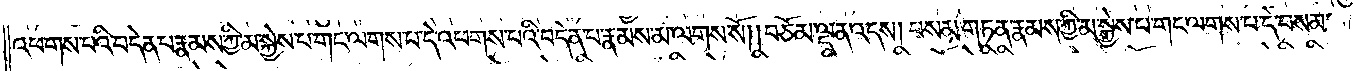འཕགས་པའི་བདེན་པ་རྣམས་ཀྱི་མ་སྐྱེས་པ་གང་ལགས་པ་དེ་འཕགས་པའི་བདེན་པ་རྣམས་མ་ལགས་སོ། །བཅོམ་ལྡན་འདས། བསམ་གཏན་རྣམས་ཀྱི་མ་སྐྱེས་པ་གང་ལགས་པ་དེ་བསམ་
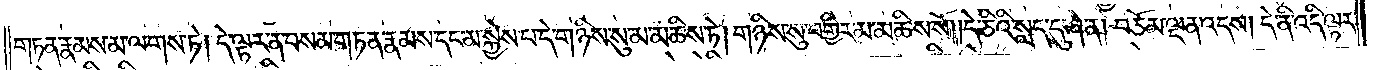གཏན་རྣམས་མ་ལགས་ཏེ། དེ་ལྟར་ན་བསམ་གཏན་རྣམས་དང་མ་སྐྱེས་པ་དེ་གཉིས་སུ་མ་མཆིས་ཏེ། གཉིས་སུ་བགྱིར་མ་མཆིས་སོ། །དེ་ཅིའི་སླད་དུ་ཞེ་ན། བཅོམ་ལྡན་འདས། དེ་ནི་འདི་ལྟར་
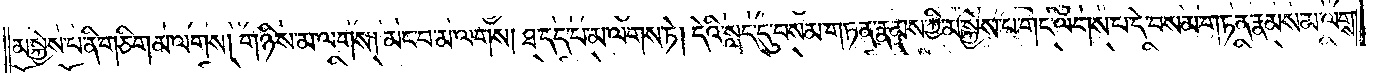མ་སྐྱེས་པ་ནི་གཅིག་མ་ལགས། གཉིས་མ་ལགས། མང་བ་མ་ལགས། ཐ་དད་པ་མ་ལགས་ཏེ། དེའི་སླད་དུ་བསམ་གཏན་རྣམས་ཀྱི་མ་སྐྱེས་པ་གང་ལགས་པ་དེ་བསམ་གཏན་རྣམས་མ་ལགས་
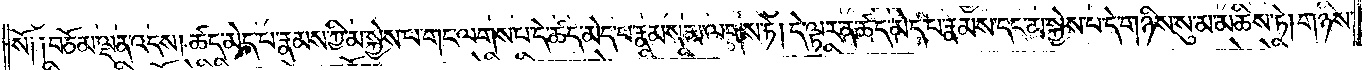སོ༑ ༑བཅོམ་ལྡན་འདས། ཚད་མེད་པ་རྣམས་ཀྱི་མ་སྐྱེས་པ་གང་ལགས་པ་དེ་ཚད་མེད་པ་རྣམས་མ་ལགས་ཏེ། དེ་ལྟར་ན་ཚད་མེད་པ་རྣམས་དང་མ་སྐྱེས་པ་དེ་གཉིས་སུ་མ་མཆིས་ཏེ། གཉིས་
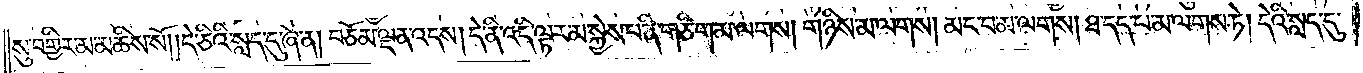སུ་བགྱིར་མ་མཆིས་སོ། །དེ་ཅིའི་སླད་དུ་ཞེ་ན། བཅོམ་ལྡན་འདས། དེ་ནི་འདི་ལྟར་མ་སྐྱེས་པ་ནི་གཅིག་མ་ལགས། གཉིས་མ་ལགས། མང་བ་མ་ལགས། ཐ་དད་པ་མ་ལགས་ཏེ། དེའི་སླད་དུ་
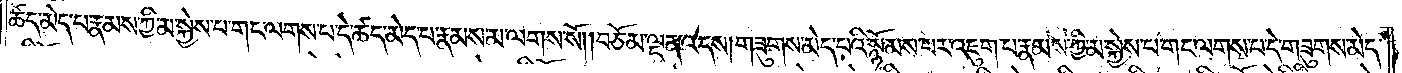ཚད་མེད་པ་རྣམས་ཀྱི་མ་སྐྱེས་པ་གང་ལགས་པ་དེ་ཚད་མེད་པ་རྣམས་མ་ལགས་སོ། །བཅོམ་ལྡན་འདས་གཟུགས་མེད་པའི་སྙོམས་པར་འཇུག་པ་རྣམས་ཀྱི་མ་སྐྱེས་པ་གང་ལགས་པ་དེ་གཟུགས་མེད་
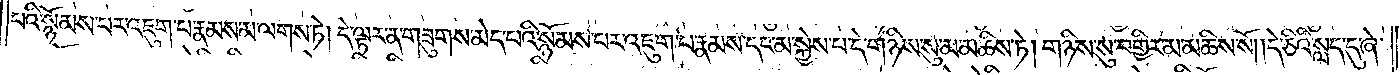པའི་སྙོམས་པར་འཇུག་པ་རྣམས་མ་ལགས་ཏེ། དེ་ལྟར་ན་གཟུགས་མེད་པའི་སྙོམས་པར་འཇུག་པ་རྣམས་དང་མ་སྐྱེས་པ་དེ་གཉིས་སུ་མ་མཆིས་ཏེ། གཉིས་སུ་བགྱིར་མ་མཆིས་སོ། །དེ་ཅིའི་སླད་དུ་ཞེ་
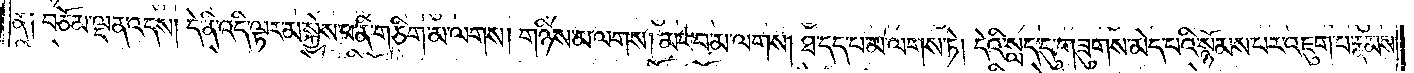ན༑ བཅོམ་ལྡན་འདས། དེ་ནི་འདི་ལྟར་མ་སྐྱེས་པ་ནི་གཅིག་མ་ལགས། གཉིས་མ་ལགས། མང་བ་མ་ལགས། ཐ་དད་པ་མ་ལགས་ཏེ། དེའི་སླད་དུ་གཟུགས་མེད་པའི་སྙོམས་པར་འཇུག་པ་རྣམས་
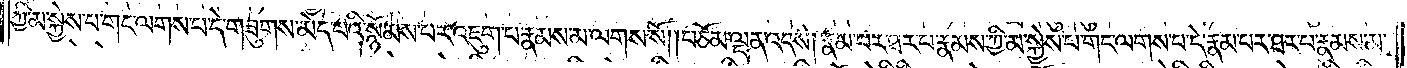ཀྱི་མ་སྐྱེས་པ་གང་ལགས་པ་དེ་གཟུགས་མེད་པའི་སྙོམས་པར་འཇུག་པ་རྣམས་མ་ལགས་སོ། །བཅོམ་ལྡན་འདས། རྣམ་པར་ཐར་པ་རྣམས་ཀྱི་མ་སྐྱེས་པ་གང་ལགས་པ་དེ་རྣམ་པར་ཐར་པ་རྣམས་མ་
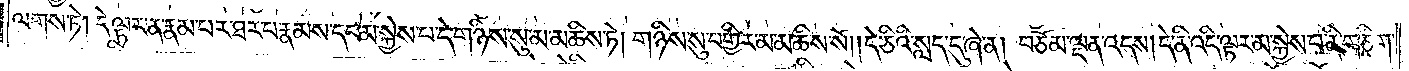ལགས་ཏེ། དེ་ལྟར་ན་རྣམ་པར་ཐར་པ་རྣམས་དང་མ་སྐྱེས་པ་དེ་གཉིས་སུ་མ་མཆིས་ཏེ། གཉིས་སུ་བགྱིར་མ་མཆིས་སོ། །དེ་ཅིའི་སླད་དུ་ཞེ་ན། བཅོམ་ལྡན་འདས། དེ་ནི་འདི་ལྟར་མ་སྐྱེས་པ་ནི་གཅིག་
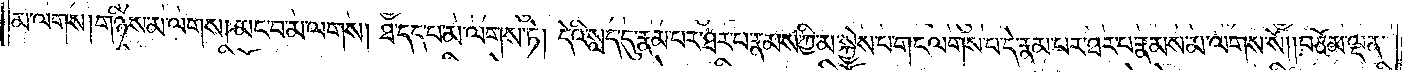མ་ལགས། གཉིས་མ་ལགས། མང་བ་མ་ལགས། ཐ་དད་པ་མ་ལགས་ཏེ། དེའི་སླད་དུ་རྣམ་པར་ཐར་པ་རྣམས་ཀྱི་མ་སྐྱེས་པ་གང་ལགས་པ་དེ་རྣམ་པར་ཐར་པ་རྣམས་མ་ལགས་སོ། །བཅོམ་ལྡན་
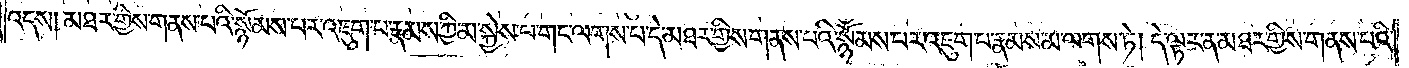འདས། མཐར་གྱིས་གནས་པའི་སྙོམས་པར་འཇུག་པ་རྣམས་ཀྱི་མ་སྐྱེས་པ་གང་ལགས་པ་དེ་མཐར་གྱིས་གནས་པའི་སྙོམས་པར་འཇུག་པ་རྣམས་མ་ལགས་ཏེ། དེ་ལྟར་ན་མཐར་གྱིས་གནས་པའི་
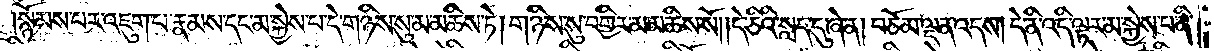སྙོམས་པར་འཇུག་པ་རྣམས་དང་མ་སྐྱེས་པ་དེ་གཉིས་སུ་མ་མཆིས་ཏེ། གཉིས་སུ་བགྱིར་མ་མཆིས་སོ། །དེ་ཅིའི་སླད་དུ་ཞེ་ན། བཅོམ་ལྡན་འདས། དེ་ནི་འདི་ལྟར་མ་སྐྱེས་པ་ནི་
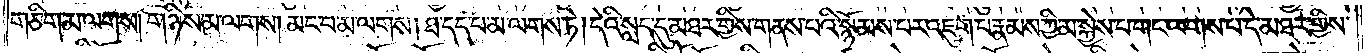གཅིག་མ་ལགས། གཉིས་མ་ལགས། མང་བ་མ་ལགས། ཐ་དད་པ་མ་ལགས་ཏེ། དེའི་སླད་དུ་མཐར་གྱིས་གནས་པའི་སྙོམས་པར་འཇུག་པ་རྣམས་ཀྱི་མ་སྐྱེས་པ་གང་ལགས་པ་དེ་མཐར་གྱིས་
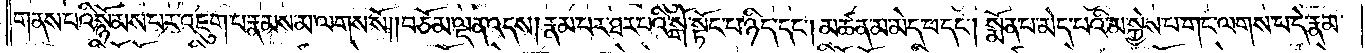གནས་པའི་སྙོམས་པར་འཇུག་པ་རྣམས་མ་ལགས་སོ། །བཅོམ་ལྡན་འདས། རྣམ་པར་ཐར་པའི་སྒོ་སྟོང་པ་ཉིད་དང༌། མཚན་མ་མེད་པ་དང༌། སྨོན་པ་མེད་པའི་མ་སྐྱེས་པ་གང་ལགས་པ་དེ་རྣམ་
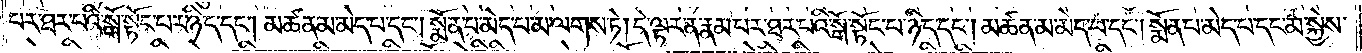པར་ཐར་པའི་སྒོ་སྟོང་པ་ཉིད་དང༌། མཚན་མ་མེད་པ་དང༌། སྨོན་པ་མེད་པ་མ་ལགས་ཏེ། དེ་ལྟར་ན་རྣམ་པར་ཐར་པའི་སྒོ་སྟོང་པ་ཉིད་དང༌། མཚན་མ་མེད་པ་དང༌། སྨོན་པ་མེད་པ་དང་མ་སྐྱེས་
